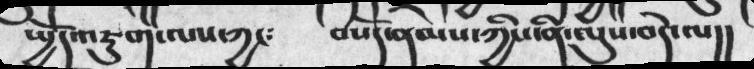ཡྱོད་འཇུག་ལས་ཀྱང༴    བསོད་ནམས་ཀྱིས་ནི་ལུས་བདེ་ལ།།
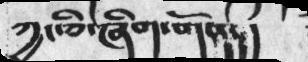ཀྱང་ཅི་ཞིག་གནོད།།
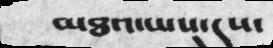མཐའ་ཡས་དུས་
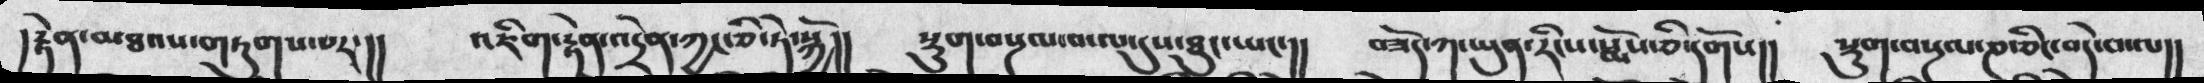།རྟེན་མཐའས་གཏུགས་པར་།།   འཇིག་རྟེན་འདྲེན་ཀྱང་ཅི་ཏེ་སྐྱོ།།   སྡུག་བསྔལ་བ་ལ་དུས་ཐུང་ཡང་།།   བཟོད་ཀ་ཡུན་རིངས་སྨོས་ཅི་དགོས།།  སྡུག་བསྔལ་ཎཅིང་བདེ་བ་ལ།།
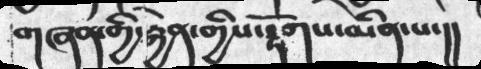གཞན་གྱི་རྐྱེན་གྱིས་རྟོགས་མིན་པ་།།
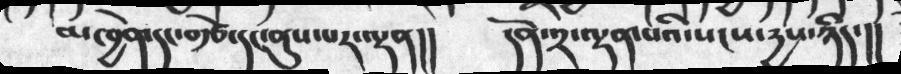མཁྱེན་དང་བརྩེ་དང་ནུས་པར་ལྡན།།   དོན་༢་ལྡན་པའི་སངས་དྱས་ཉིད་།།
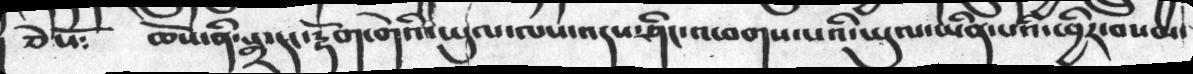ཅེསོ༴  ཆོས་ནི་སྒྲ་དང་རྡོག་གེའི་ཡུལ་ལས་འདས་ཤིང་འཕགས་པའི་ཡུལ་ཡིན་པའི་ཕྱིར་བསམ་
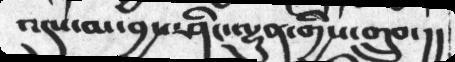འདུས་མ་བྱས་ཤིང་ལྷུན་གྱིས་གྲུབ་།།
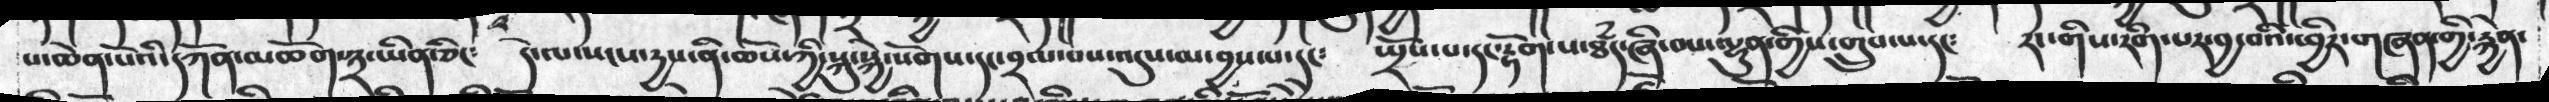པ་ཆེན་པོའི་དཀོན་མཆོག་༣་ཡིན་ཅིང་  དེ་ལ་སངས་དྱས་ནི་ཆོས་ཀྱི་སྐུ་སྐྱེ་སོགས་དང་བྲལ་བས་འདུས་མ་བྱས་པ་དང༴  སྤྲོས་པ་དང་རྟོག་པ་ཐཾད་ཞི་བས་ལྷུན་གྱིས་གྲུབ་པ་དང༴  རང་གིས་རིག་པར་བྱ་བའི་ཕྱིར་གཞན་གྱི་རྐྱེན་
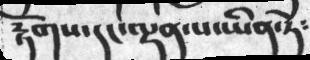རྟོགས་དང་ལྡན་པ་ཡིན་ཏེ༴
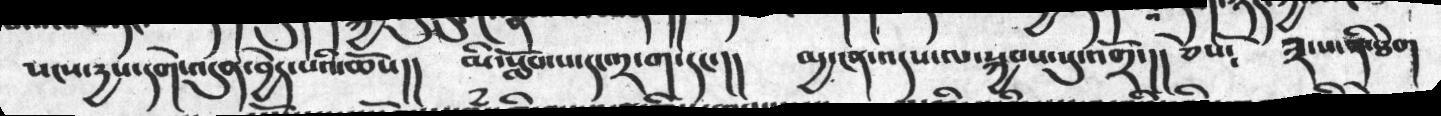སངས་རྒྱས་དགེ་འདུན་བྱེད་པའི་ཆོས།།   མི་སློབ་པ་དང་༢་ག་དང་།།         མྱ་ངན་འདས་ལ་སྐྱབས་སུ་འགྲོ་།། ཅེསོ༴  ༣་པ་ནི་ཐེག
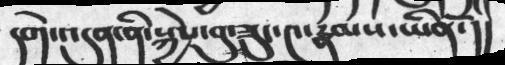དགེ་འདུན་ནི་སྐྱེས་བུ་ཟུང་༤་རྣམས་ཡིནོ་།།
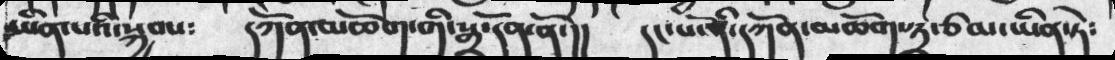ཡིན་པའི་སྐྱབས༴ དཀོན་མཆོག་གི་སྒྲ་དོན་ནོ་།།  དང་པ་ནི་དཀོན་མཆོག་༣་ཙམ་ཡིན་ཏེ༴
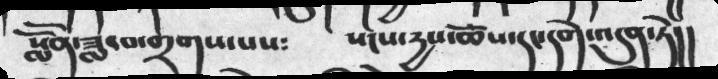སློོན་ཟླ་བ་གྲགས་པས༴  སངས་དྱས་ཆོས་དང་དགེ་འདུན་ཏེ།།
